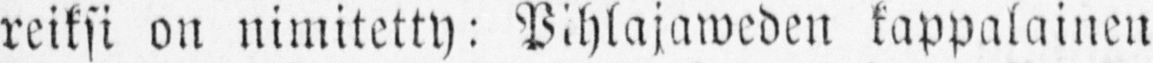reiksi on nimitetty: Pihlajaweden kappalainen
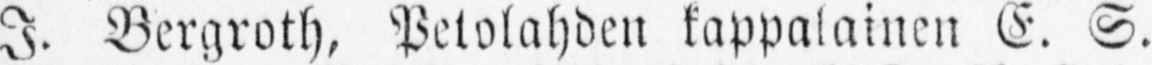I. Bergroth, Petolahden kappalainein E. S.
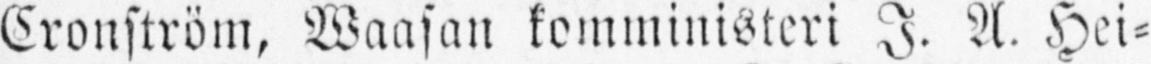Cronström, Waasan komministeri I. A. Hei-
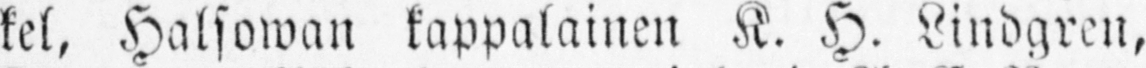kel, Halsowan kappalainen K. H. Lindgren,
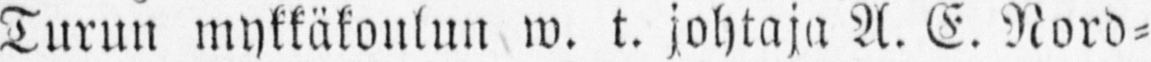Turun mykkäkoulun w. t. johtaja A. E. Nord-
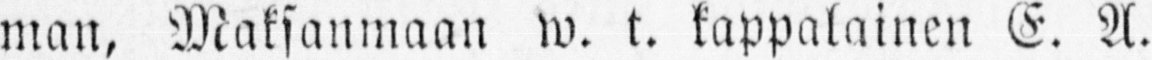man, Maksanmaan w. t. kappalainen E. A.
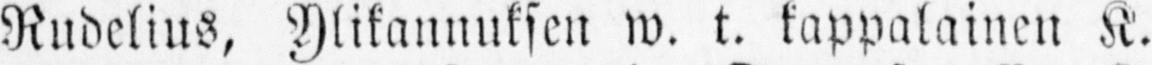Rudelius, Ylikannuksen w. t. kappalainen K.
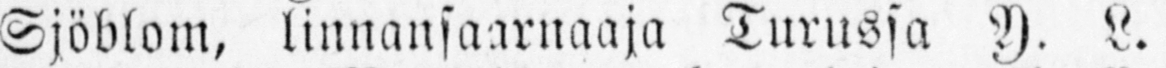Sjöblom, linnansaarnaaja Turussa Y. L.
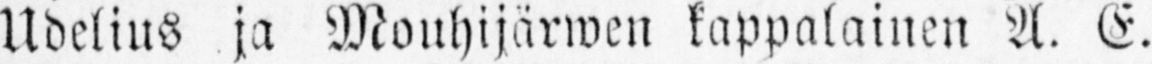Udelius ja Mouhijärwn kappalainen A. E.
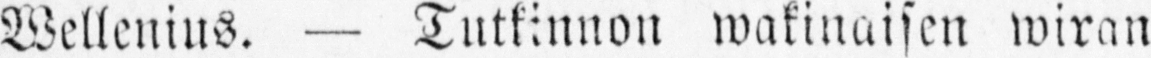Wellenius. — Tutkinnon wakinaisen wiran
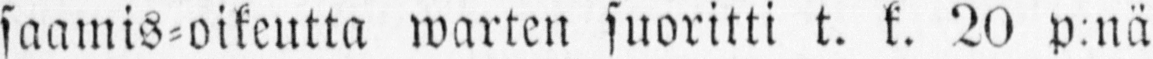saamis-oikeutta warten suoritti t. k. 20 p.nä
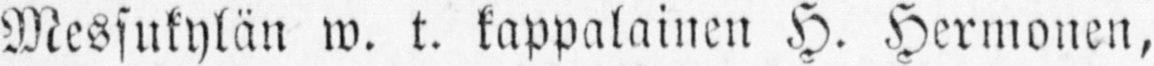Messukylän w. t. kappalainen H. Hermonen,
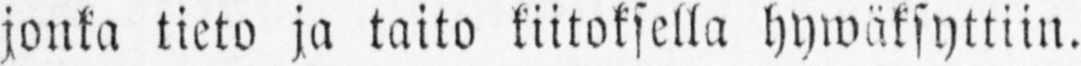jonka tieto ja taito kiitoksella hywäksyttiin.
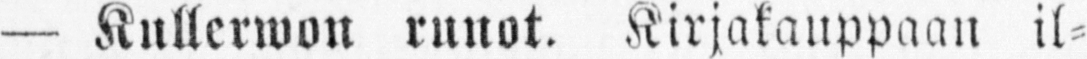— Kullerwon runot. Kirjakauppaan il-
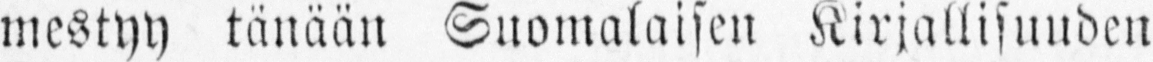mestyy tänään Suomalaisen Kirjallisuuden
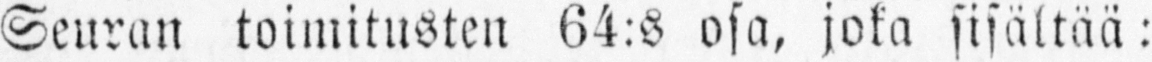Seuran toimitusten 64:s osa, joka sisältää:
